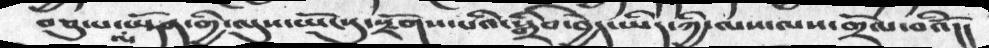བཅུ་པ་ལ་ཡྟོན་གྱི་ལུས་ཡོངསུ་སྫོགས་པའི་སྒྲིབ་བྱེད་ཡིད་ཀྱི་ལས་ལས་གྲོལ་བའིོ།།
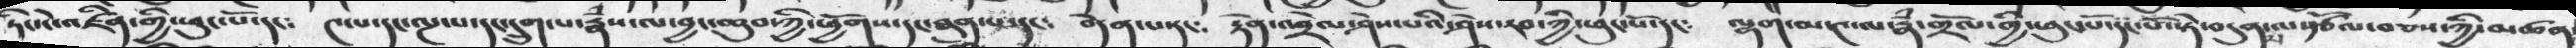ཏིང་ངེ་འཛིན་གྱི་ཕུང་པོ་དང༴   ༤་པ་དང་ལྔ་པ་དང་དྲུག་པ་རྣཾས་ལ་བྱང་ཆུབ་ཀྱི་ཕྱོགས་དང་ཐུན་པ་དང༴  བདེན་པ་དང༴   རྟེན་འབྲེལ་ཤེས་པའི་ཤེས་རབ་ཀྱི་ཕུང་པོ་དང༴  ལྷག་པ་༤་ལ་རྣཾ་གྲོལ་གྱི་ཕུང་པོ་དང་པོ་སྟེ་བདུན་ལ་ལརྩོལ་བཅས་ཀྱི་མཚན
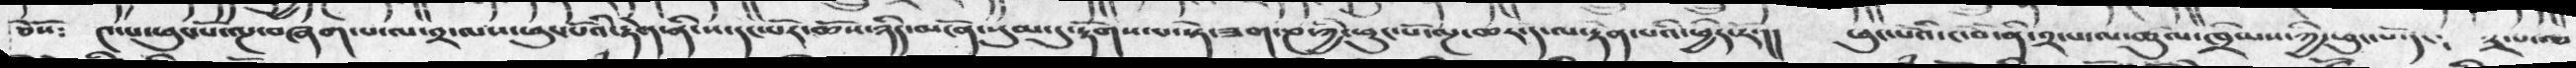ཅེསོ༴   ༤་པ་ཕུང་པོ་ལྔ་བཞག་པ་ལ་༢་ལས་ཕུང་པོའི་རྟེན་ནི་ས་དང་པོར་ཆོས་ཉིད་མངོན་སུམ་དུ་རྟོགས་པ་སྟེ་ཟག་ཎ་ཀྱི་ཕུང་པོ་ལྔ་ཆར་ད་ལ་རྟེན་པའི་ཕྱིར་རོ་།།   ཕུང་པོའི་ངོ་བོ་ནི་༢་པ་ལ་ཚུལ་ཁྲིམས་ཀྱི་ཕུང་པོ་དང༴   ༣་པ་ལ་
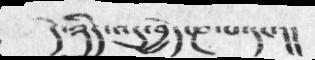དེ་ཉིད་འདུ་བྱེད་ཎ་པ་དང་།།
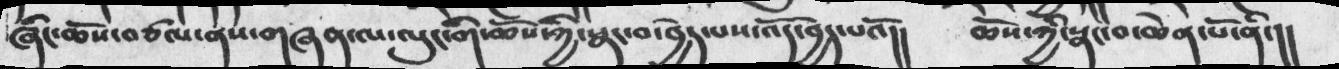ཞིང་ཆོས་བཙལ་ནས་གཞན་ལ་ལུང་གི་ཆོས་ཀྱི་སྣང་བ་བྱེད་པས་འོད་བྱེད་པའོ།།   ཆོས་ཀྱི་སྣང་བ་ཆེན་པོ་ནི་།།
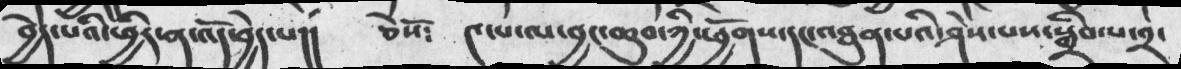བྱེད་པའི་ཕྱིར་ན་འོད་བྱེད་པ།།  ཅེསོ༴  ༤་པ་ལ་བྱང་ཆུབ་ཀྱི་ཕྱོགས་དང་འཐུན་པའི་ཤེས་པས་སྒྲིབ་པ་༢་
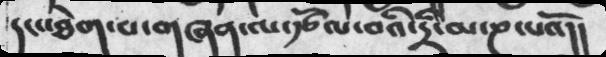དང་ཐེག་པ་གཞན་ལ་རྩོལ་བའི་དྲི་མ་ཎ་པའོ།།
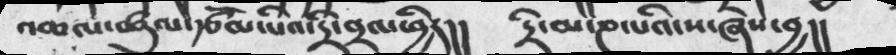འཆལ་ཚུལ་རྩོམ་པའི་དྲི་བྲལ་ཕྱིར།།  དྲི་མ་ཎ་པའི་ས་ཞེས་བྱ།།
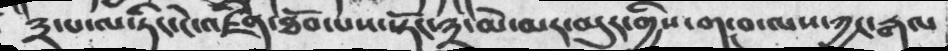༣་པ་ལ་ཏིང་ངེ་འཛིན་ཐོབ་པས་སྟོང་༣་མེ་མར་མུར་གྱིས་གང་་བ་ལས་ཀྱང་རྒལ
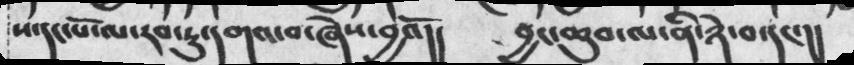ས་དང་པོ་ལ་རབ་ཏུ་དགའ་བ་ཞེས་བྱའོ།།   བྱང་ཆུབ་ལ་ནི་ཉེ་བ་དང་།།
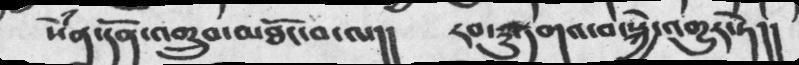སེཾན་དོན་འགྲུབ་མཐོང་བ་ལ།།  རབ་ཏུ་དགའ་བ་སྐྱེ་འགྱུར་ཏེ།།
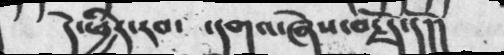དེ་ཕྱིར་རབ་    ་དགའ་ཞེས་བརྗོད་དོ་།།
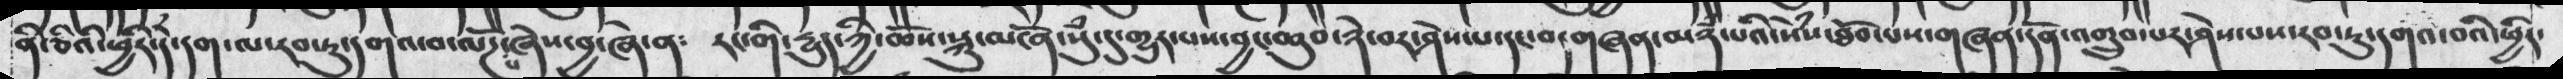ནི་ཅིའི་ཕྱིར་དེ་དག་ལ་རབ་ཏུ་དགའ་བ་ལོཌ་པ་ཞེས་བྱ་ཞེ་ན༴  རང་གི་དྱུད་ཀྱི་ཆོས་སྐུ་མངོན་སུཾ་དུ་གྱུར་པས་བྱང་ཆུབ་ཉེ་བར་ཤེས་པ་དང་བདགཞན་མཉཾ་པའི་སེཾས་ཐོབ་པས་གཞན་དོན་འགྲུབ་པར་ཤེས་པས་རབ་ཏུ་དགའ་བའི་ཕྱིར་
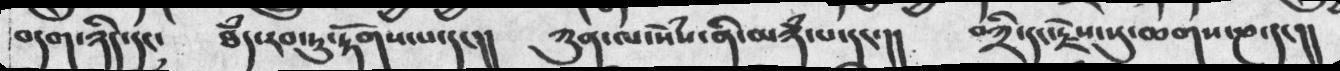བདག་ཉིད་དང་   ཐཾད་རབ་ཏུ་རྟོགས་པ་དང།།  ཀུན་ལ་སེཾས་ནི་མཉཾ་པ་དང་།།  བཀྲི་དང་རྗེས་སུ་ཆགས་ཎ་དང།།
